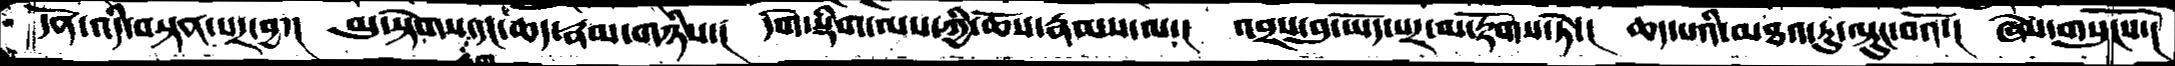དོན་འདི་བསྟན་པར་བྱ་།  མུ་སྟེགས་དང་ཆད་རྣམ་གཉིས་།  དགེ་སྡིག་ལས་ཀྱི་ཆོས་རྣམས་ལ་།  འབྲས་བུ་ཡོད་པར་མ་རྟོགས་ཏེ་།  ཆད་པའི་མཐའ་རུ་ལྟུང་བའོ་།   ཞེས་གསུངསོ་།
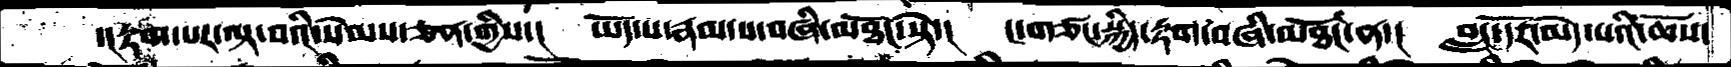་།རྟག་པར་ལྟ་བའི་སེམས་ཅན་གྱིས་།    ཡོད་པ་རྣམ་པ་བཞི་མཐོང་སྟེ་།   ང་གཙང་སྐྱིད་རྟག་བཞི་མཐོང་ན་།   བླང་དོར་མེད་པའི་ཆོས་
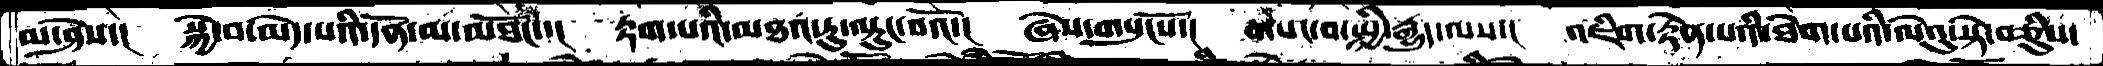མ་ཤེས་།   སྐྱེ་བ་མེད་པའི་དོན་མ་མཐོང་་།  རྟག་པའི་མཐའ་རུ་ལྟུང་བའོ་།   ཞེས་གསུངསོ་།   གསང་བ་སྤྱི་རྒྱུད་ལས་།   འཇིག་རྟེན་པའི་ཐེག་པའི་ལེའུ་སྟེ་བཅིུས་
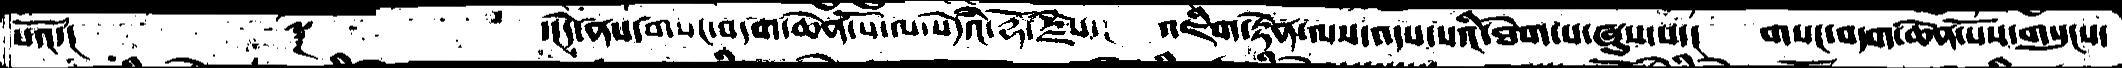པའོ་།         ༈           ་།དེ་ནས་གསང་བདག་ཆེན་པོ་ལ་སེདཾའ་རྡོ་རྗེ་རྗེས་།   འཇིག་རྟེན་ལས་འདས་པའི་ཐེག་པ་་ཞུས་པ་།།   གསང་བདག་ཆེན་པོས་གསུངས་
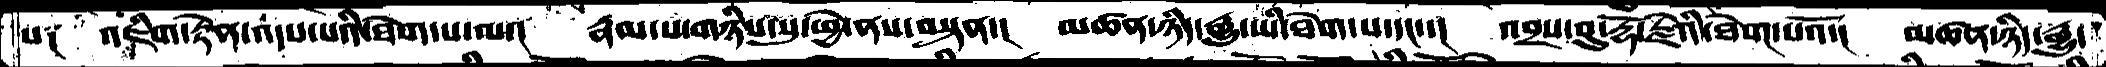པ༑  འཇིག་རྟེན་འདས་པའི་ཐེག་པ་ལ་།   རྣམ་པ་གཉིས་སུ་ཕྱེ་ནས་བསྟན་།   མཚན་ཉིད་རྒྱུ་ཡི་ཐེག་པ་དང་་།   འབྲས་བུ་རྡོ་རྗེའི་ཐེག་པའོ་།   མཚན་ཉིད་རྒྱུ་
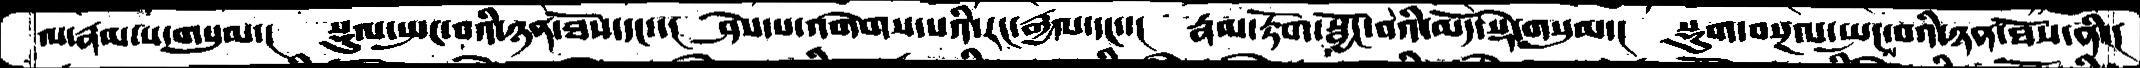ལ་རྣམ་པ་གསུམ་།  སྡུལ་སྤང་བའི་ཉན་ཐོས་དང་་།  ཤེས་པ་འགེགས་པའི་རང་རྒྱལ་དང་་།  རྣམ་རྟོག་སྦྱོང་བའི་མདོ་སྡེ་གསུམ་།  སྡུག་བསྔལ་སྤང་བའི་ཉན་ཐོས་ནི་།
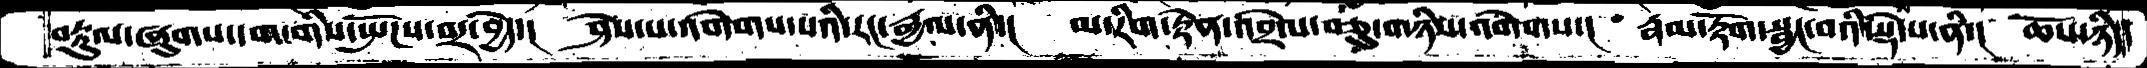བརྟུལ་ཞུགས་དག་གིས་སྤོངས་བར་བྱེད་།  ཤེས་པ་འགེགས་པའི་རང་རྒྱལ་ནི་།  མ་རིག་རྟེན་འབྲེལ་བཅུ་གཉིས་འགེགས་།  རྣམ་རྟོག་སྦྱང་བའི་སྡེ་པ་ནི་།  ཆོས་ཉིད་
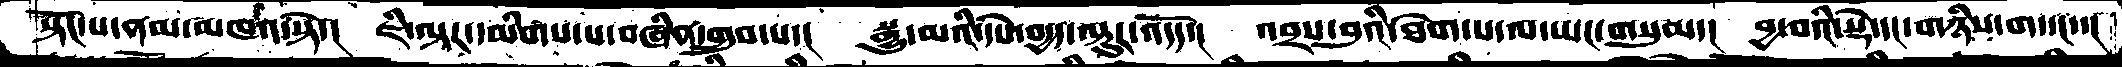སྟོང་པ་ནམ་མཁའ་སྟེ་།  ཇི་ལྟར་དམིགས་པ་བཞིན་གྲུབ་པ་།  སྒྱུ་མའི་དཔེ་བདྱད་ལྟུར་འདོད་།  འབྲས་བུའི་ཐེག་པ་ལ་ཡང་གསུམ་།  བྱ་བའི་སྡེ་དང་གཉིས་ག་དང་་།
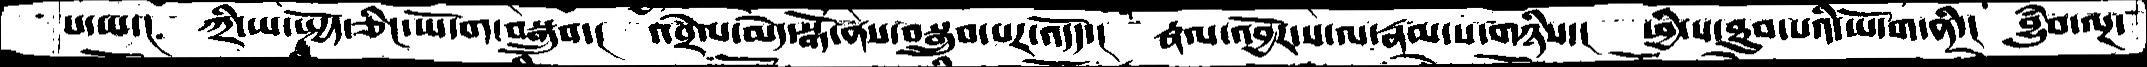པ་ལ་། ཀྲི་ཡ་སྤྱོད་ཅིང་ཡོ་ག་བསྒྲུབ་། འབྲེལ་མེད་སྒོ་ནས་བསྒྲུབ་པར་འདོད་། རྣལ་འབྱོར་པ་ལ་རྣམ་ས་གཉིས་། ཕྱི་ས་ཐུབ་པའི་ཡོ་ག་ནི་། བྱུཾབ་ལྔ་
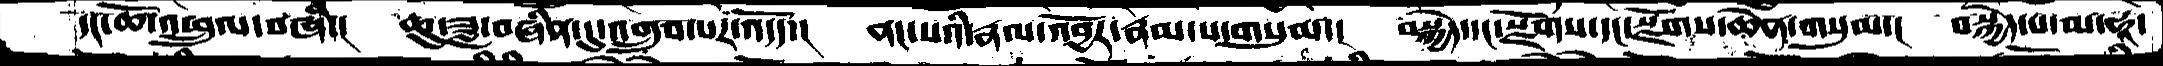དང་ཆོ་འཕྲུལ་བཞི་།   ཆུ་ཟླ་བཞིན་དུ་འགྲུབ་པར་འདོད་།  ནང་པའི་རྣལ་འབྱོར་རྣམ་པ་གསུམ་།  བསྐྱེད་དང་སྫོགས་དང་སྫོགས་ཆེན་གསུམ་།  བསྐྱེད་པ་མ་ཧཱ་
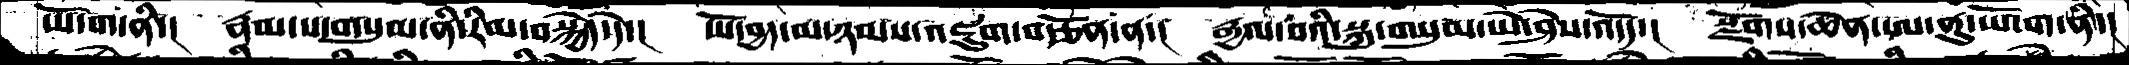ཡོ་ག་ནི་།  རྣམ་པ་གསུམ་ནི་རིམ་བསྐྱེད་དེ་།  ཡོ་བྱད་མ་ཉམས་འཇུག་བརྩོན་ན་།  རྒྱལ་བའི་སྐུ་གསུམ་ཡེ་ཤེས་འདོད་།  སྫོགས་ཆེན་ཨ་ནུ་ཡོ་ག་ནི་།
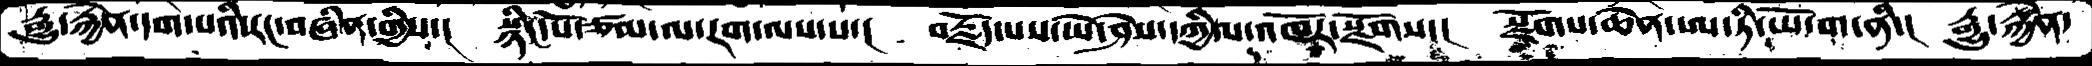རྒྱུ་རྐྱེན་དག་པའི་རང་བཞིན་གྱིས་།  སྙིང་པོ་ཙམ་ལ་རག་ལས་པ་།  བརྗོད་པས་ཡེ་ཤེས་དཀྱིལ་འཁོར་སྫོགས་།  སྫོགས་ཆེན་ཨ་ཏི་ཡོ་ག་ནི་།  རྒྱུ་རྐྱེན་
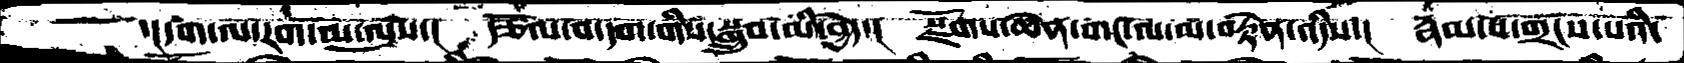་།དག་ལ་རག་མ་ལུས་།  རྩོལ་བ་དག་གིས་སྒྲུབ་མི་བྱེད་།  སྫོགས་ཆེན་གང་ལ་མ་བརྟེན་འདིས་།  རྣམ་པ་གྲངས་པའི་
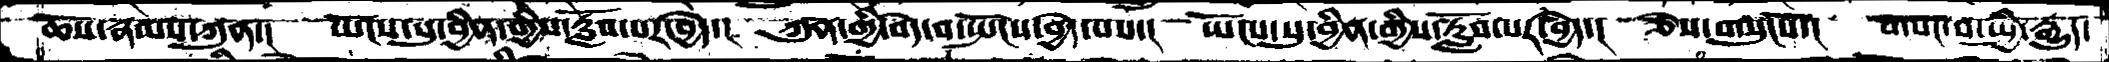ཆོས་རྣམས་ཀུན་།  ཡོངས་སུ་བྱིན་གྱིས་རློབ་པར་བྱེད་། ཀུན་གྱི་བདེ་བ་སྤོངས་བྱེད་པས་།  ཡོངས་སུ་བྱིན་གྱིས་རློབ་པར་བྱེད་།  ཅེས་གསུངསོ་།  གསང་བ་སྤྱི་རྒྱུད་
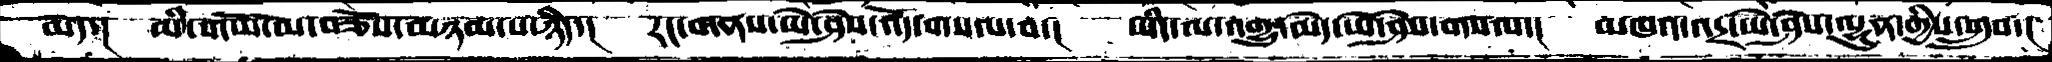མེད་།   མི་གཡོ་མ་བཅོས་མཉམ་པ་ཉིད་།  རང་གནས་ཡེ་ཤེས་འོད་གསལ་བ་།  ཡིད་ལ་འགྱུ་མེད་ཡེ་ཤེས་གསལ་།  མཁའ་འདྲ་ཡེ་ཤེས་ལྷུན་གྱིས་གྲུབ་།
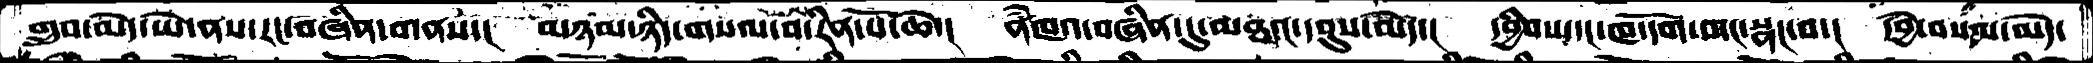གྲུབ་མེད་ཡེ་ནས་རང་བཞིན་གནས་།  མཉམ་ཉིད་གསལ་བ་རིན་པོ་ཆེ་།  ནཾཁའ་བཞིན་དུ་མཐའ་དབུས་མེད་།  དབྱིབས་དང་ཁ་དོག་གང་སྣང་བ་།  དབྱེ་བསལ་མེད་
